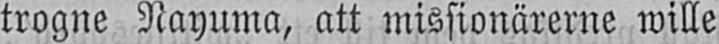trogne Nayuma, att missionärerne wille
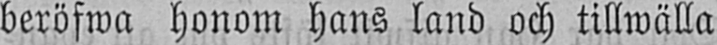beröfwa honom hans land och tillwälla
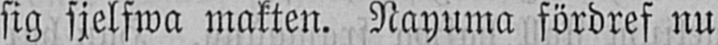sig sjelfwa makten. Nayuma fördref nu
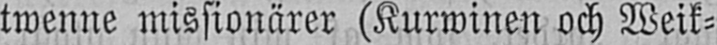twenne missionärer (Kurwinen och Weik-
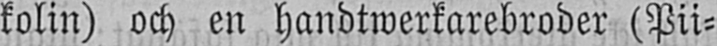kolin) och en handtwerkarebroder (Pii-
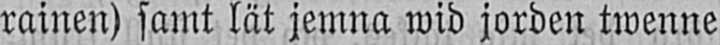rainen) samt lät jemna wid jorden twenne
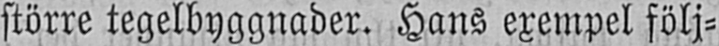större tegelbyggnader. Hans exempel följ-
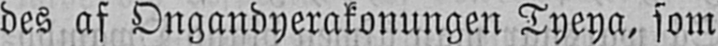des af Ongandyerakonungen Tyeya, som
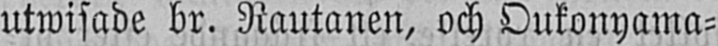utwisade br. Rautanen, och Oukonyama-
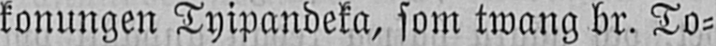konungen Tyipandeka, som twang br. To-
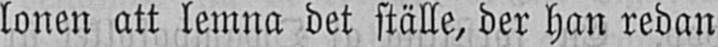lonen att lemna det ställe, der han redan
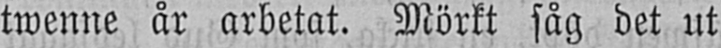twenne år arbetat. Mörkt såg det ut
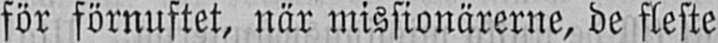för förnuftet, när missionärerne, de fleste
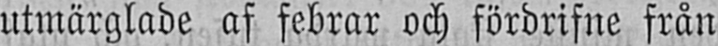utmärglade af febrar och fördrifne från
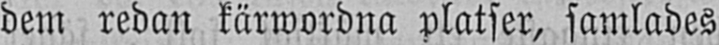dem redan kärwordna platser, samlades
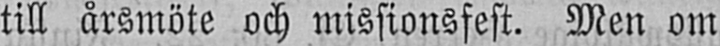till årsmöte och missionsfest. Men om
